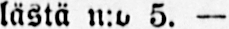lästä n:o 5. —
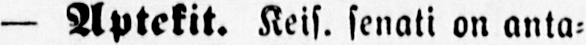— Aptekit. Keis. senati on anta-
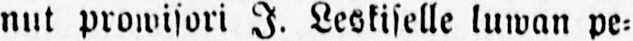nut prowisori I. Leskiselle luwan pe-
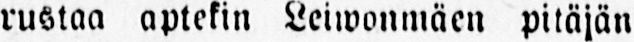rustaa aptekin Leiwonwäen pitäjän
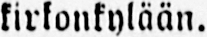kirkonkylään.
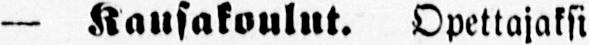— Kansakoulut. Opettajaksi
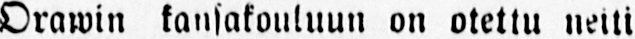Orawin kansakouluun on otettu neiti
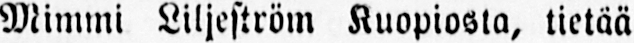Mimmi Liljeström Kuopiosta, tietää
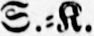S.-K.
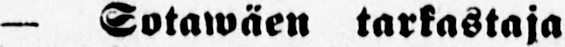— Sotawäen tarkastaja
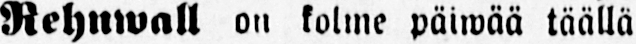Rehnwall on kolme päiwää täällä
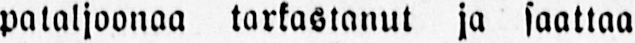pataljoonaa tarkastanut ja saattaa
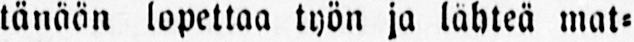tänään lopettaa työn ja lähteä mat-
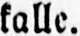kalle.
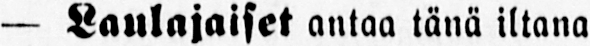— Laulajaiset antaa tänä iltana
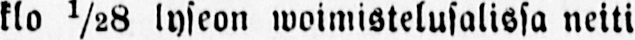klo ½8 lyseon woimistelusalissa neiti
